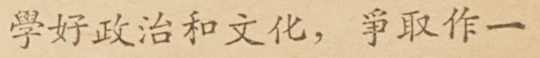學好政治和文化，爭取作一
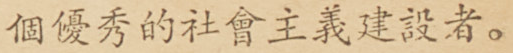各優秀的社會主義建設者。
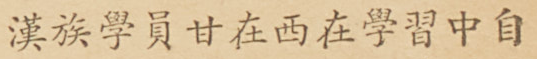漢族學員甘在西在學習中自
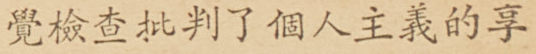覺檢查批判了個人主義的享
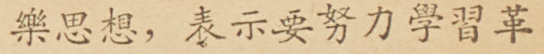樂思想，表示要努力學習革
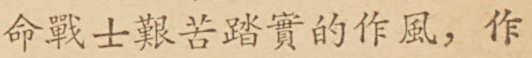命戰士艱苦踏實的作風，作
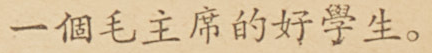一個毛主席的好學生。
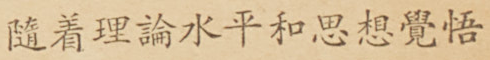隨着理論水平和思想覺悟
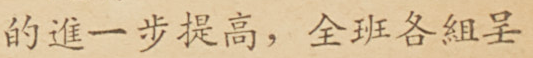的進一步提高，各班各組呈
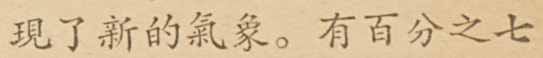現了新的氣象。有百分之七
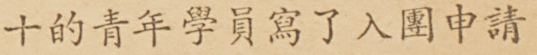十的青年學員寫了入圍申請
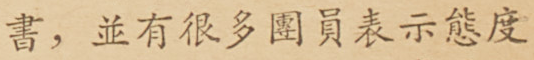書，並有很多團員表示態度
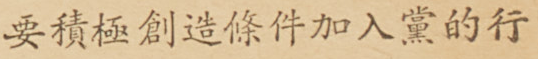要積極創造條件加入黨的行
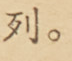列。
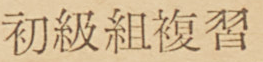初級組複習
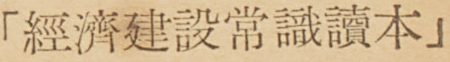「經濟建設常識讀本」
